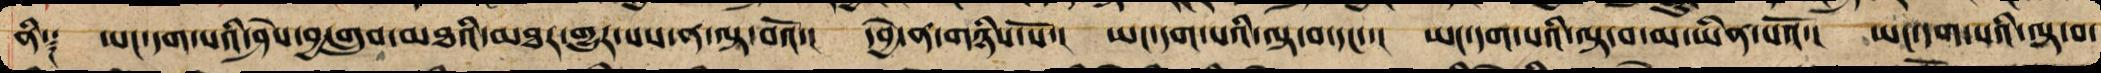ནི༑ ཡང་དག་པའི་ཤེས་བྱ་གྲུབ་མཐའི་མཐར་གྱུར་པས་ན་ལྟ་བའོ་། དབྱེ་ན་གཉིས་སོ་། ཡང་དག་པའི་ལྟ་བ་དང་་། ཡང་དག་པའི་ལྟ་བ་མ་ཡིན་པའོ་། ཡང་དག་པའི་ལྟ་བ་
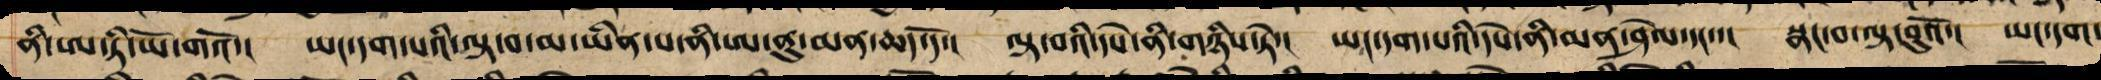ནི་ཨ་ཏི་ཡོ་གའོ་། ཡང་དག་པའི་ལྟ་བ་མ་ཡིན་པ་ནི་ཨ་ནུ་མན་ཆོད་དོ་། ལྟ་བའི་དཔེ་ནི་གཉིས་ཏེ་། ཡང་དག་པའི་དཔེ་ནི་མན་ཤེལ་དང་་། སྣང་བ་ལྟ་བུའོ་། ཡང་དག་
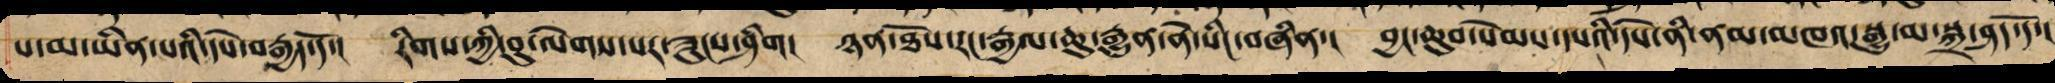པ་མ་ཡིན་པའི་དཔེ་བརྒྱད་དོ་། རིགས་ཀྱི་བུ་ལེགས་པར་ཟུང་ཞིག། ཉན་ཐོས་རང་རྒྱལ་ཆུ་རྒྱུན་ནེ་སིང་བཞིན་། བྱང་ཆུབ་སེམས་དཔའི་དཔེ་ནི་ནམ་མཁའ་སྒྱུ་མ་སྐྲ་ཤད་དོ་།
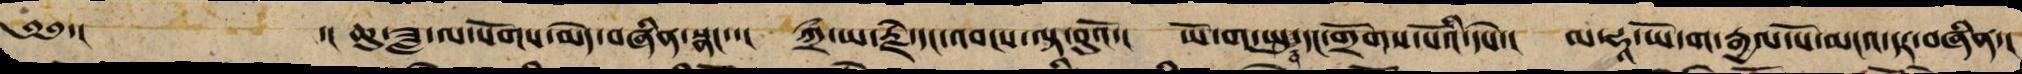༄༅་།  ་། ཆུ་ཟླ་ལ་སོགས་མེད་བཞིན་སྣང་་། ཀྲྀ་ཡ་རྗེ་དང་འབངས་ལྟ་བུའོ་། ཡོ་ག་སྤུན་དང་གྲོགས་པོའི་དཔེ་། མ་ཧཱ་ཡོ་ག་རྒྱལ་པོ་མངའ་དར་བཞིན་།
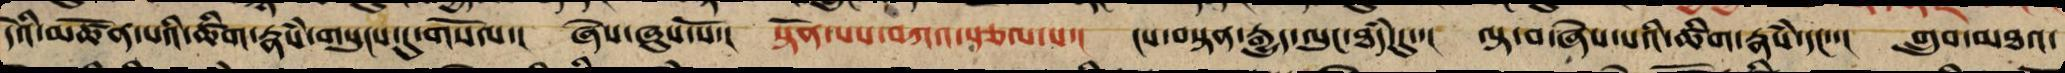དེའི་མཚོན་པའི་ཚིགས་རྣཾས་གསུང་དུ་གསོལ་། ཞེས་ཞུས་སོ་། སྟོན་པས་བཀའ་སྩལ་པ་། ངས་བསྟན་རྒྱུད་ལུང་ཐཾད་དུ་། ལྟ་བ་ཞེས་པའི་ཚིག་རྣཾས་དང་་། གྲུབ་མཐའ་
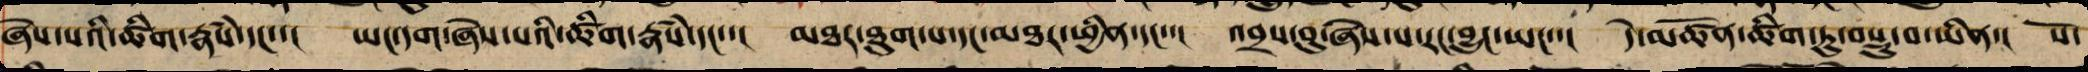ཞེས་པའི་ཚིག་རྣཾས་དང་་། ཡང་དག་ཞེས་པའི་ཚིག་རྣཾས་དང་་། མཐར་ཐུག་པ་དང་མཐར་ཕྱིན་དང་་། འབྲས་བུ་ཞེས་པ་གང་བྱུང་ཡང་་། དེ་མཚོན་ཚིག་ཏུ་བསྡུས་པ་ཡིན་། སོ་
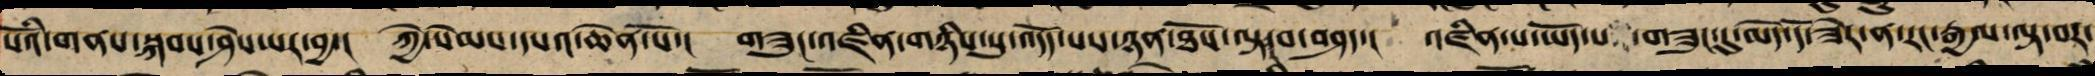སོའི་གནས་སྐབས་ཤེས་པར་བྱ་། ཀྱེ་སེམས་དཔའ་ཆེན་པོ་། གཟུང་འཛིན་གཉིས་སུ་འདོད་པ་ཉན་ཐོས་ལྟ་བར་བཤད་། འཛིན་པ་ཡོད་པས་གཟུང་དུ་མེད་དོ་ཟེར་ན་རང་རྒྱལ་ལྟ་བར་
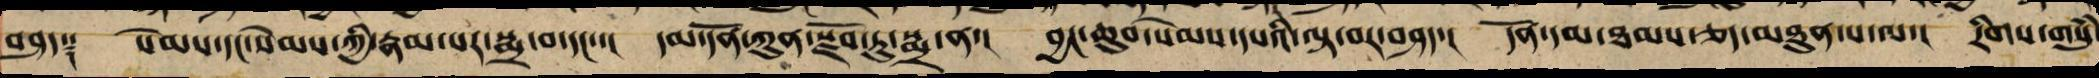བཤད༑ སེམས་དང་སེམས་ཀྱི་རྣམ་པར་སྨྲ་བ་དང་་། དམ་དོན་ཀུན་སྫོབ་ཏུ་སྨྲ་ན་། བྱང་ཆུབ་སེམས་དཔའི་ལྟ་བར་བཤད་། དོན་དམ་ཐམས་ཅད་མཐུན་པ་ལ་། རིགས་གསུཾ
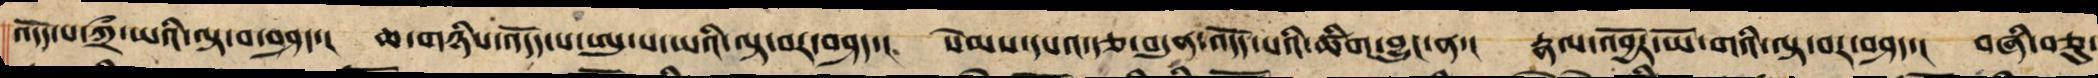འདོད་པ་ཀྲྀ་ཡའི་ལྟ་བར་བཤད་། ཆ་གཉིས་འདོད་པ་ཨུ་པ་ཡའི་ལྟ་བར་བཤད་། སེམས་དཔའ་རྩ་བདུན་འདོད་པའི་ཚིག་བྱུང་ན་། རྣལ་འབྱོར་ཡོ་གའི་ལྟ་བར་བཤད་། བཞི་བཅུ་
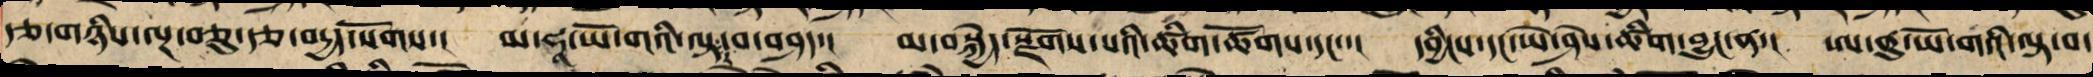རྩ་གཉིས་ལྔ་བཅུ་རྩ་བདྱད་སོགས་། མ་ཧཱ་ཡོ་གའི་ལྟ་བར་བཤད་། མ་བསྐྱེད་སྫོགས་པའི་ཚིག་ཚོགས་དང་་། དབྱིངས་དང་ཡེ་ཤེས་ཚིག་བྱུང་ན་། ཨ་ནུ་ཡོ་གའི་ལྟ་བ་
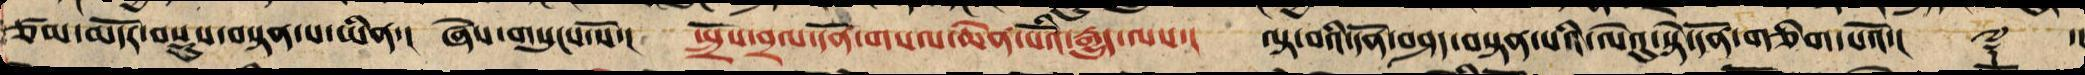ཙམ་མདོར་བསྡུས་བསྟན་པ་ཡིན་། ཞེས་གསུངས་སོ་། སྤྲོས་བྲལ་དོན་གསལ་ཆེན་པོའི་རྒྱུད་ལས་། ལྟ་བའི་དོན་བཤད་པ་དང་མཚོན་པའི་ཚིག་བསྟན་པའི་ལེའུ་སྟེ་དོན་གཅིག་པའོ་།། ༈ ་།།
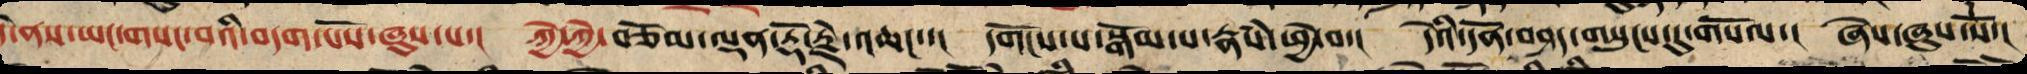དེ་ནས་ཡང་གསང་བའི་བདག་པོས་ཞུས་པ་། ཀྱེ་ཀྱེ་བཅོམ་ལྡན་རྡོ་རྗེ་འཆང་་། དགོངས་པ་སྒོམ་པ་རྣཾས་ཕྱེ་བ་། དེའི་དོན་བཤད་གསུང་དུ་གསོལ་། ཞེས་ཞུས་སོ་།
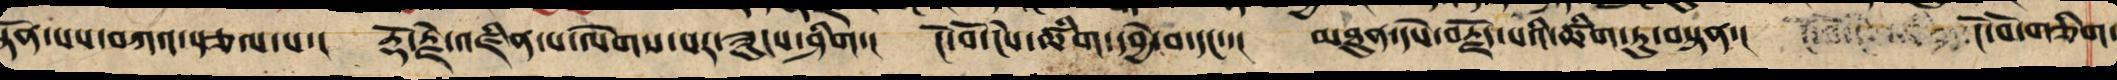སྟོན་པས་བཀའ་སྩལ་པ་། རྡོ་རྗེ་འཛིན་པ་ལེགས་པར་ཟུངས་ཞིག། ངོ་བོ་ངེས་ཚིག་དབྱེ་བ་དང་་། མཐུན་དཔེ་བརྗོད་པའི་ཚིག་ཏུ་བསྟན་། །ོ་བོ་གཅིག་
